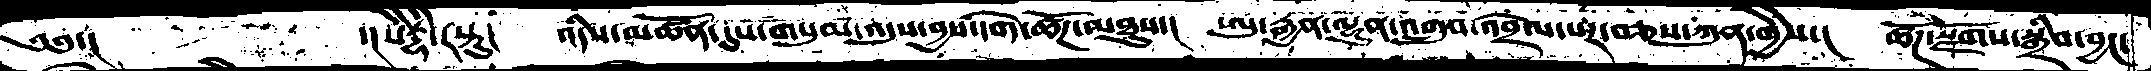༄༅་།     ་།སིདྡྷི་རསྟུ།  འདིས་མཚོན་དུས་གསུམ་འདུས་བྱས་དགེ་ཚོཌ་མཐུས་།  ཨུ་རྒྱན་ལྷུན་འགྲུབ་འབྲེལ་པར་བཅས་ཀུན་གྱིས་།  ཚོཌ་སྫོགས་སྒྲིབ་བྱང་
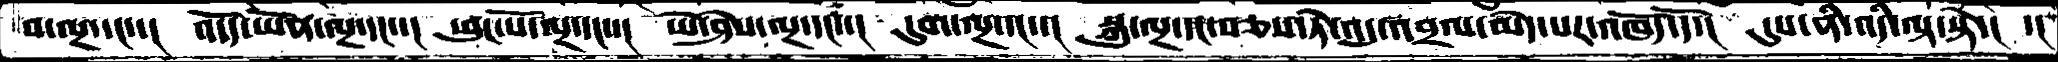བ་ལྔ་དང་་། འདོད་ཡོན་ལྔ་དང་་།  ཕུང་པོ་ལྔ་དང་་།  ཡེ་ཤེས་ལྔ་དང་་།  དུག་ལྔ་དང་་།  སྐུ་ལྔ་བཅས་ཏེ་འདུ་འབྲལ་མེད་པར་འཁོད་དོ་།  དུས་ནི་འདི་ལྟ་སྟེ་།  ་།
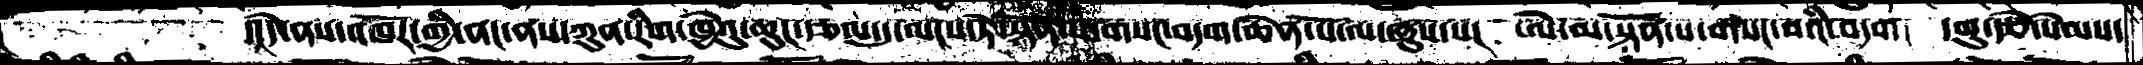་།དེ་ནས་འཁོར་གྱི་ནང་ནས་ཀུན་རིག་ཁྱེའུ་ཆུང་རྩལ་དུ་ལངས་ཏེ་སྟོན་པ་གསང་བདག་ཆེན་པོ་ལ་ཞུས་པ།  ཨེ་མ་སྟོན་པ་གསང་བའི་བདག།  དགུ་རྩེ་སེམས་
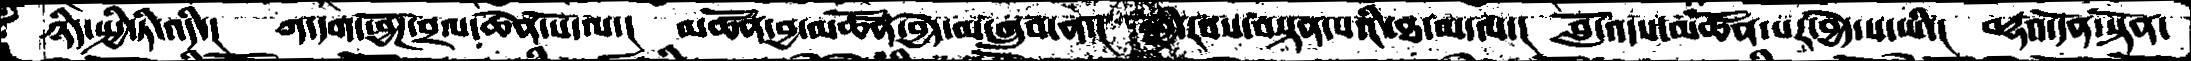ཉིད་སྤྱི་ཏི་འདི་།  ཀ་དག་ཕྱོཌ་བྲལ་ཆེན་པོ་ལ་།  མཚོན་བྱ་མཚོན་བྱེད་མ་གྲུབ་ན་།  ཕྱི་རབས་བསྟན་པའི་ཐ་མ་ལ་།  བློ་འདས་མཚོན་པར་བྱེད་པ་ཡི་།  བརྡའ་དོན་སྟོན་
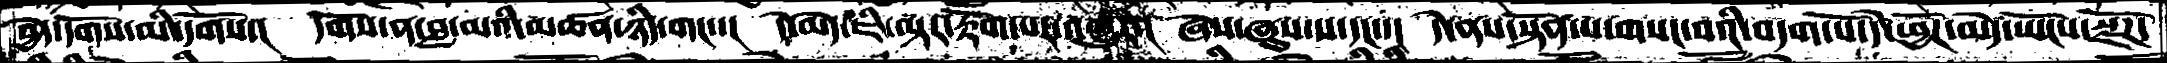བྱེད་དགོས་མི་དགོས་།  དགོས་ན་བླ་མའི་མཚན་ཉིད་གང་་།  དེ་མེད་ཇི་ལྟར་རྟོག་པར་འགྱུར་།  ཞེས་ཞུས་པ་དང་་།  དེ་ནས་སྟོན་པ་གསང་བའི་བདག་པོ་དེ་ཕྱོཌ་མེད་ཡོངས་སྫོཌ་
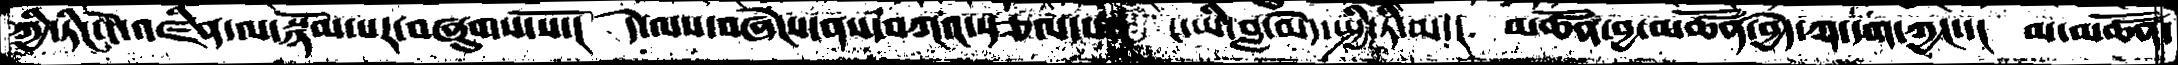ཀྱི་ཏིང་ངེ་འཛིན་ལ་སྙོམ་པར་བཞུགས་སོ་།  དེ་ལས་བཞེངས་ནས་བཀའ་སྩལ་པ་།  ང་ཡི་བླ་མེད་སྤྱི་ཏི་མ་།  མཚོན་བྱ་མཚོན་བྱེད་ཀ་དག་ཀྱང་་།  མ་མཚོན་
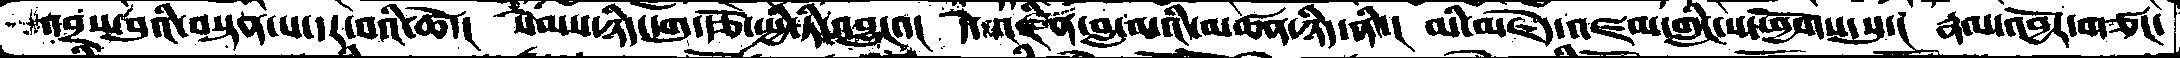འབྲས་བུའི་བསྟན་པ་དར་བའི་ཚེ་།  སེམས་ཉིད་དགུ་རྩེ་སྤྱི་ཏི་འབྱུང་་།  དེ་འཛིན་བླ་མའི་མཚན་ཉིད་ནི་།  མི་མཇེད་འཛམ་གླིང་ས་ཕྱོགས་སུ་།  རྣལ་འབྱོར་གཙང་
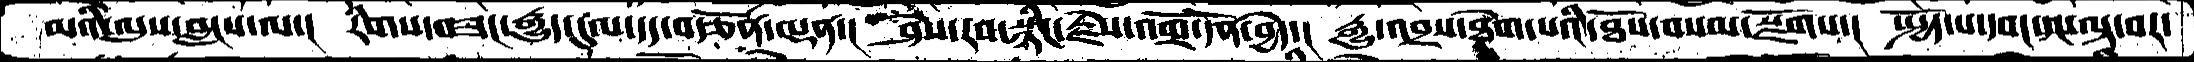མའི་ལུས་བླངས་ལ་།  རིགས་བཟང་རྒྱུད་དུལ་དད་བརྩོན་ལྡན་།  ཤེས་རབ་སྙིང་རྗེས་འགྲོ་དོན་བྱེད་།  རྒྱུ་འབྲས་ཐེག་པའི་ཐོས་བསམ་སྫོགས་།  སྤྱོད་པ་དབང་དང་ལྟ་བར་
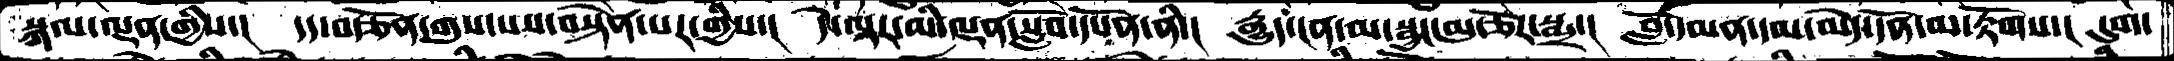སྐལ་ལྡན་གྱིས་།  དད་བརྩོན་གུས་པས་བསྟེན་པར་གྱིས་།  དེ་ལྟར་མི་ལྡན་སློབ་དཔོན་ནི་།  རྒྱུད་ངན་མ་སྦྱང་མུ་ཅོར་སྨྲ་།  བློ་དམན་དམ་མེད་དོན་མ་རྟོགས་།  དུག་
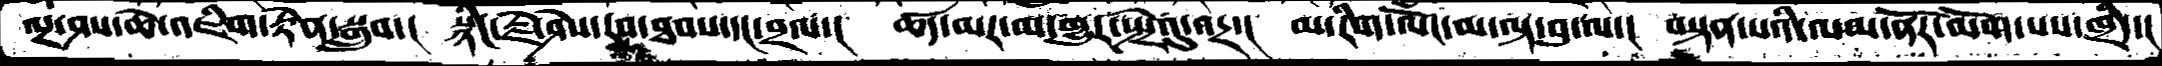ལྔ་ཤས་ཆེ་འཇིག་རྟེན་སྒྲུབ་།  སྙིང་རྗེ་ཤེས་རབ་ཐབས་དང་བྲལ་།  ཚད་མར་མ་གྱུར་སྤྲེའུ་འདྲ་།  མ་རིག་ལོང་མ་ལྟ་བུ་ལ་།  བསྟན་པའི་ལམ་ནོར་ལོག་པས་ཁྲིད་།
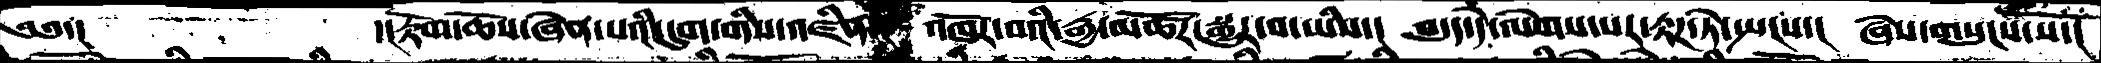༄༅་།   ་།རྟོག་ཆོས་ཞེན་པའི་དུག་གིས་འཛིན་། འཁོར་བའི་རྒྱ་མཚོར་སྒྱུར་བ་ཡིས་། བདུད་དེ་ལེགས་པར་རྟཌ་ཏེ་སྤངས་། ཞེས་གསུངས་སོ་།
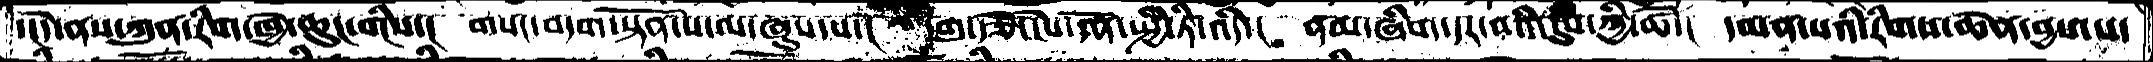་།དེ་ནས་ཀུན་རིག་ཁྱེ་ཆུང་གིས་། གསང་བདག་སྟོན་པ་ལ་ཞུས་པ་། དགུ་རྩེ་ངེས་དོན་སྤྱི་ཏི་འདི་། ནམ་ཞིག་དར་བའི་དུས་ཀྱི་ཚེ་། དམན་པའི་རིགས་ཆེན་བྱས་པ་
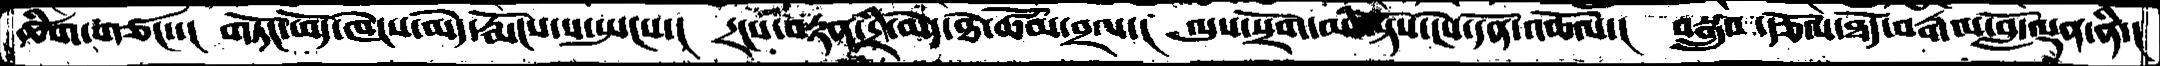ཚིག་གཙང་་།  གཏོང་ཕོད་ཁེངས་མེད་རྨོངས་པ་སྤངས་། དྲངས་བརྟན་དྲི་མེད་ཐེ་ཚོམ་བྲལ་།  ལུས་སྲོག་མི་ལྟོས་ངེས་དོན་འཆོལ་།  བསྒྲུབ་རྩོལ་ཐོད་བརྒལ་བློ་ལྡན་ནི་།
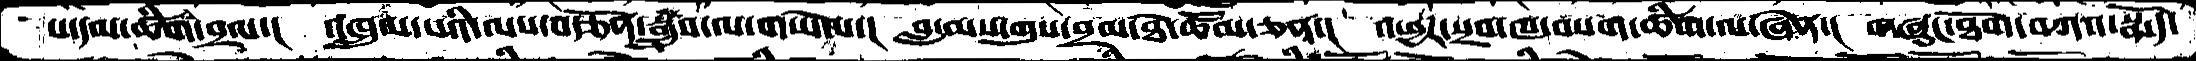པ་དམ་ཚིག་བྲལ་།  འཁྲུལ་པའི་ལས་བརྩོན་སྒྲུབ་ལ་གཡེལ་།  བླ་མས་གུས་བྲལ་ཐེ་ཚོམ་ཅན་།  འཕྱར་སྲབ་ཁ་བསག་ཚིག་ལ་ཞེན་།  གཞུང་ཐོག་བཀའ་སྨོད་
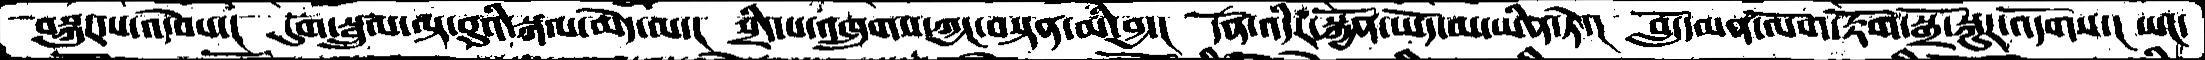བསྐུར་པ་འདེབས་།  དུག་སྦྲུལ་ལྟ་བུའི་སྐལ་མེད་ལ་།  སྲིད་པ་འཁྲུགས་ཀྱང་བསྟན་མི་བྱ་།  དོན་འདིར་སྐྱོན་ཡོད་མ་ཡིན་ཏེ་།  བློ་དམན་ལོག་རྟོག་སྒྲོ་སྐུར་འདོགས་།  ཡང་
